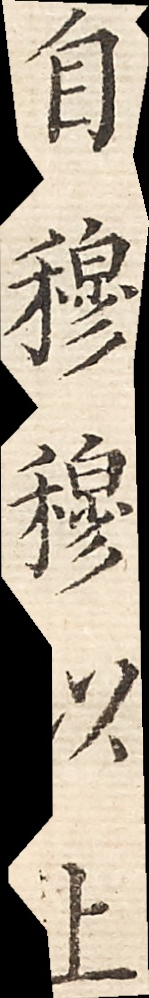自穆穆已上
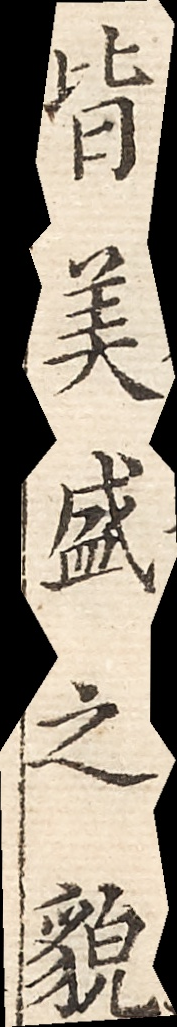皆美盛之貌
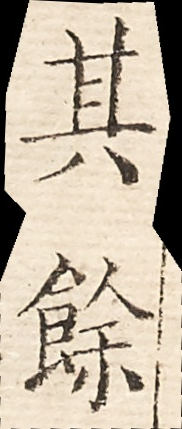其餘
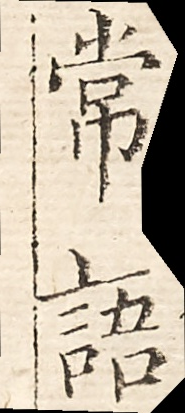常語
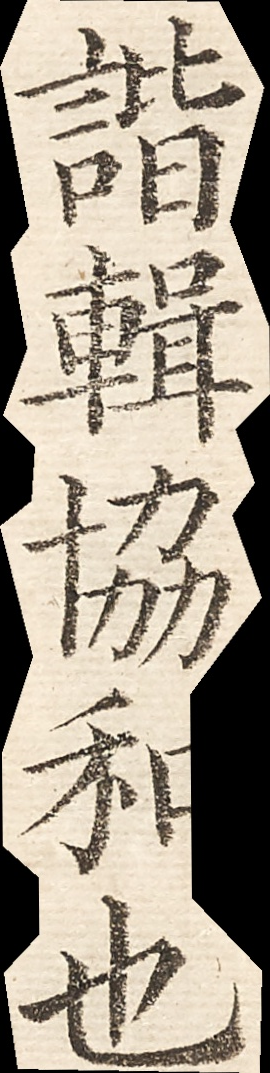諧輯協和也
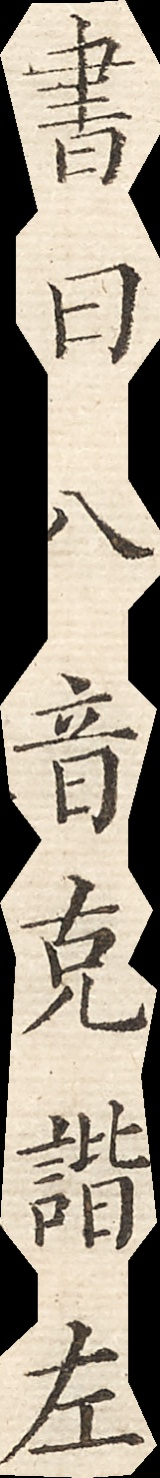書曰八音克諧左
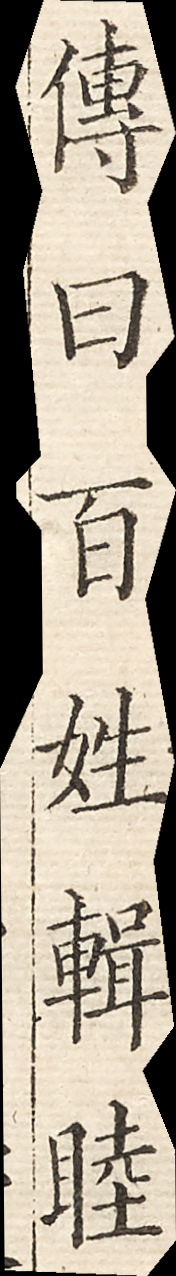傳曰百姓輯睦
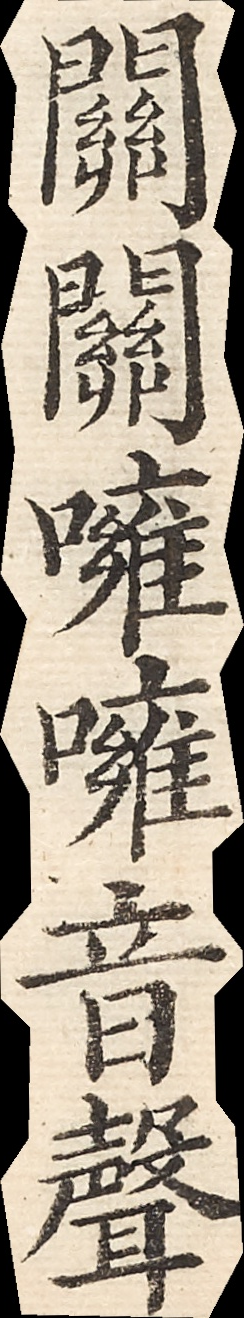關關噰噰音聲
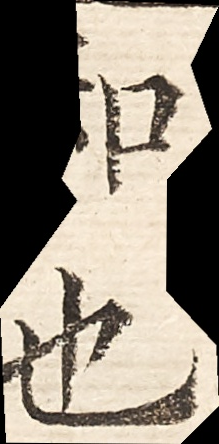和也
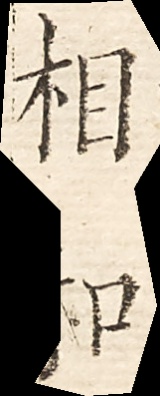相和
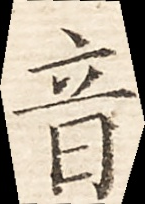音
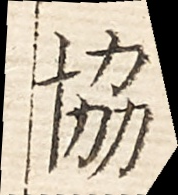協
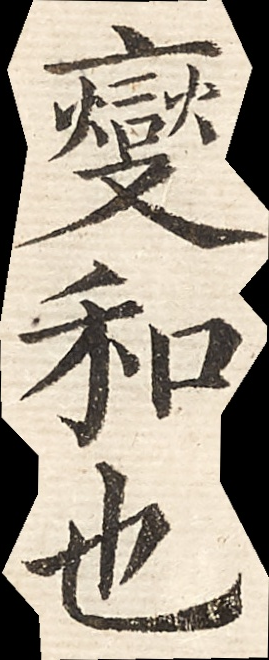燮和也
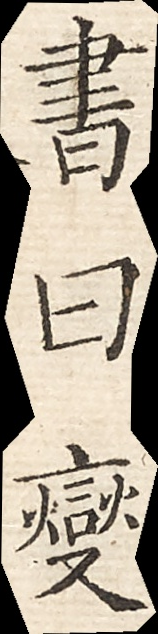書曰燮
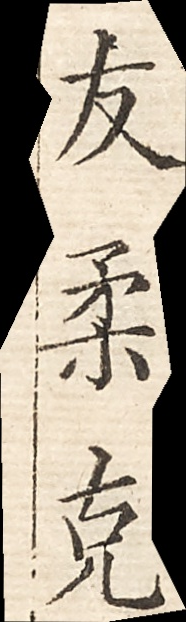友柔克
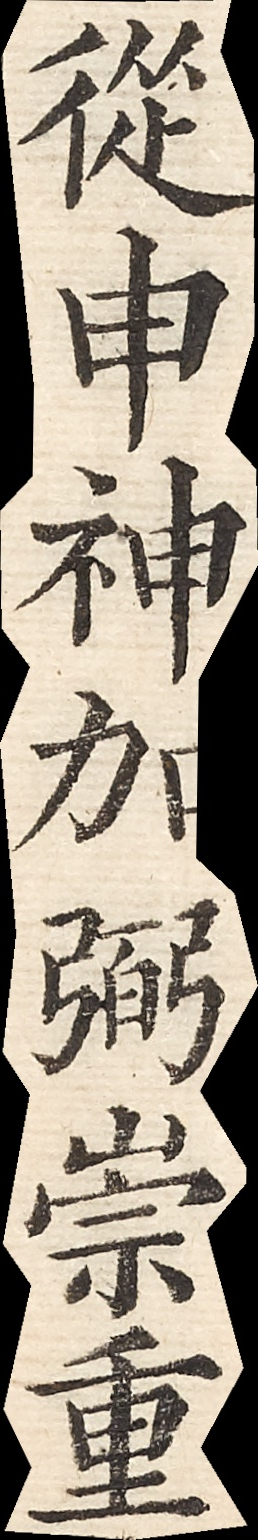從申神加弼崇重
